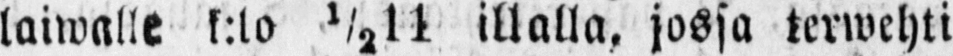laiwalle k:lo ½11 illalla, jossa terwehti
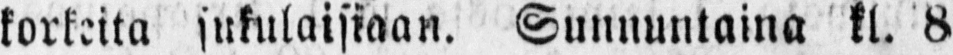korkeita sukulaisiaan. Sunnuutaina kl. 8
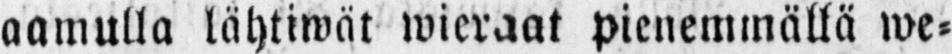aamulla lähtiwät wieraat pienemmällä we-
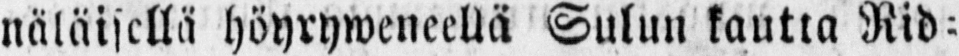näläisellä höyryweneellä Sulun kautta Rid-
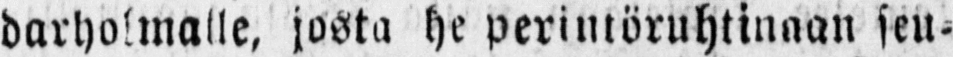darholmalle, josta he perintöruhtinaan seu-
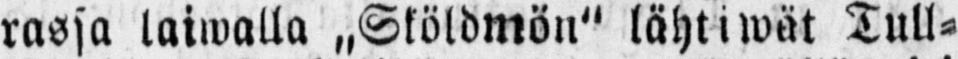rassa laiwalla „Sköldmön" lähtiwät Tull-
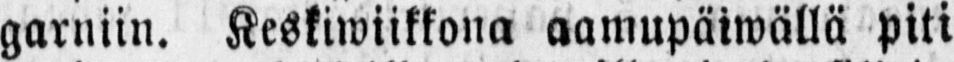garniin. Keskiwiikkona aamupäiwällä piti
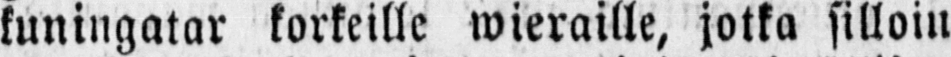kuningatar korkeille wieraille, jotka silloin
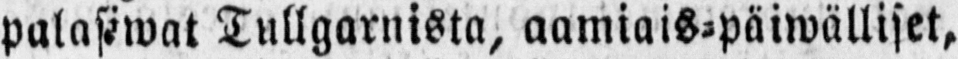palasiwat Tullgarnista, aamiais-päiwälliset,
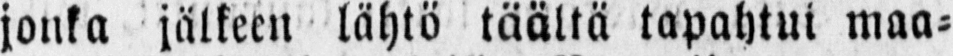jonka jälkeen lähtö täältä tapahtui maa-
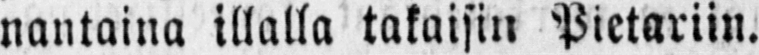nantaina illalla takaisin Pietariin.
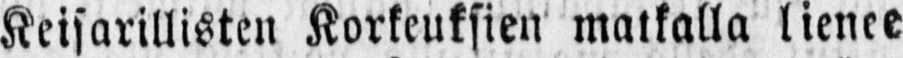Keisarillisten Korkeuksien matkalla lienee
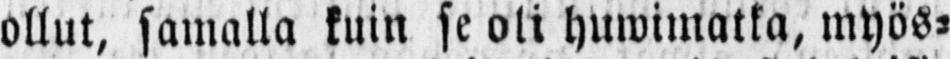ollut, samalla kuin se oli huwimatka, myös-
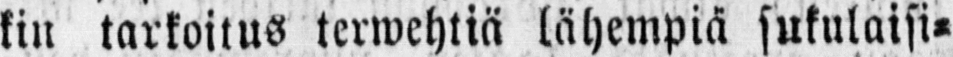kin tarkoitus terwehtiä lähempiä sukulaisi-
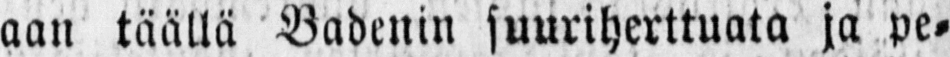aan täällä Badenin suuriherttuata ja pe-
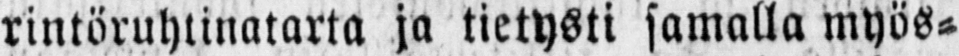rintöruhtinatarta ja tietysti samalla myös-
